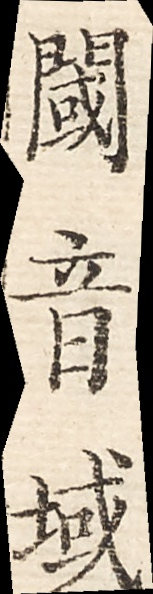閾音域
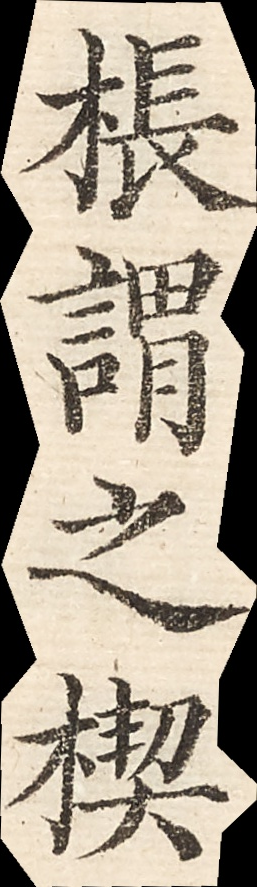棖謂之楔
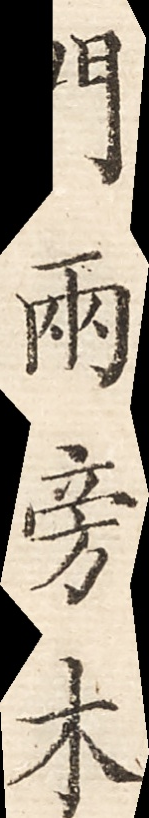門兩旁木
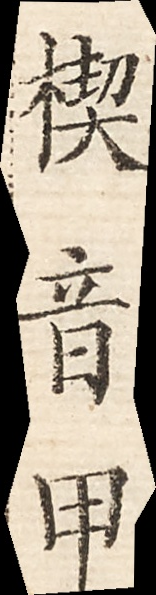楔音甲
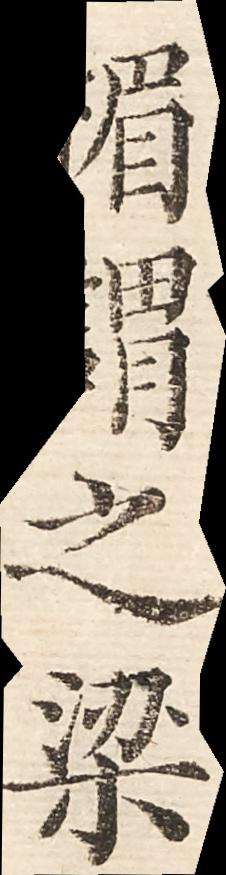楣謂之梁
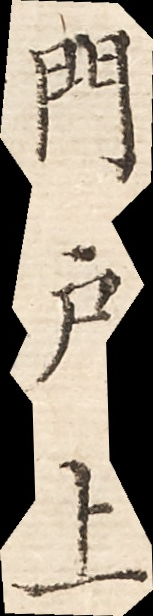門戶上
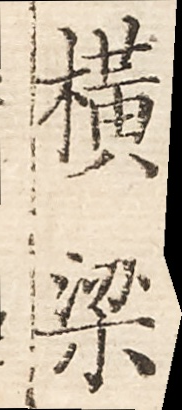橫梁
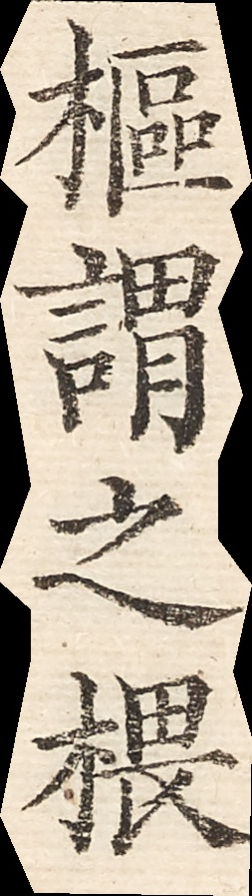樞謂之椳
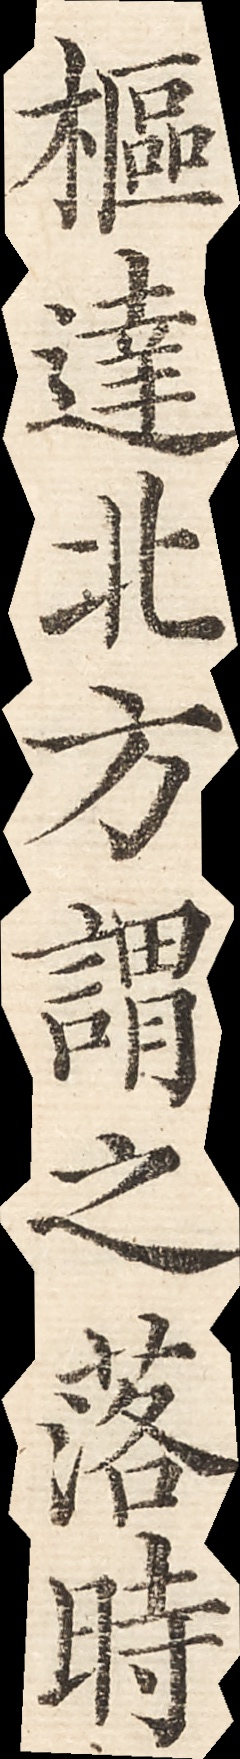樞達北方謂之落時
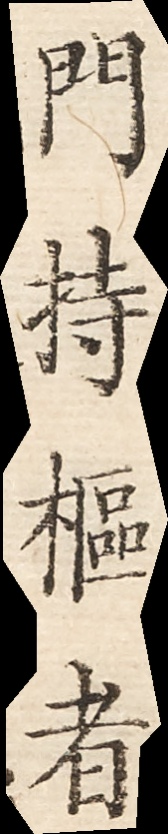門持樞者
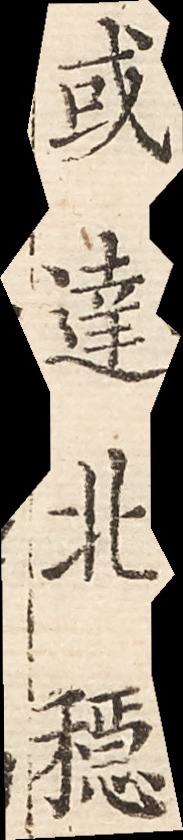或達北檼
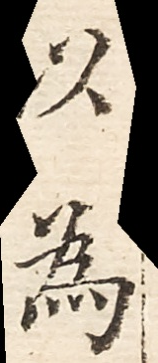以為
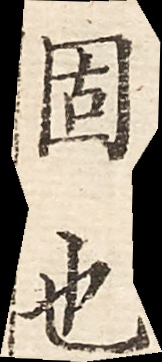固也
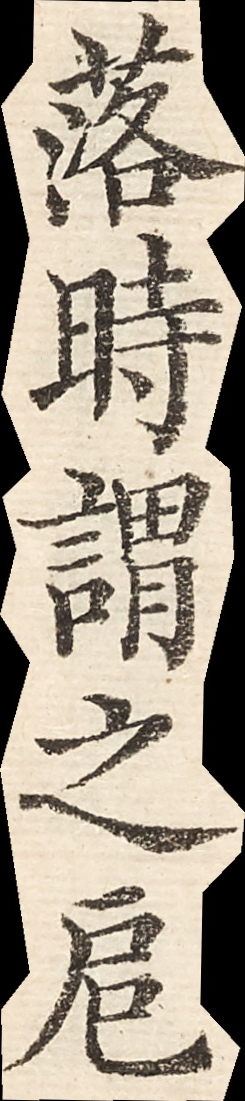落時謂之？
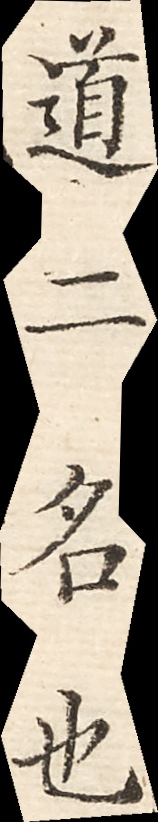道二名也
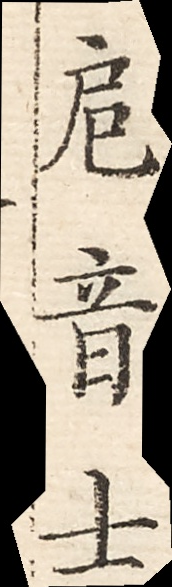？音士
